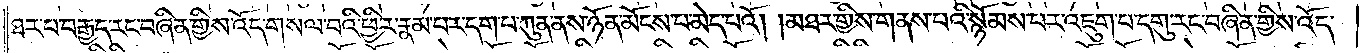ཐར་པ་བརྒྱད་རང་བཞིན་གྱིས་འོད་གསལ་བའི་ཕྱིར་རྣམ་པར་དག་པ་ཀུན་ནས་ཉོན་མོངས་པ་མེད་པའོ། །མཐར་གྱིས་གནས་པའི་སྙོམས་པར་འཇུག་པ་དགུ་རང་བཞིན་གྱིས་འོད་
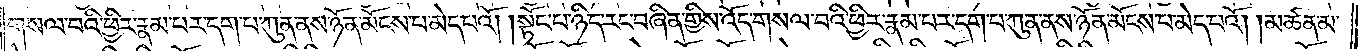གསལ་བའི་ཕྱིར་རྣམ་པར་དག་པ་ཀུན་ནས་ཉོན་མོངས་པ་མེད་པའོ། །སྟོང་པ་ཉིད་རང་བཞིན་གྱིས་འོད་གསལ་བའི་ཕྱིར་རྣམ་པར་དག་པ་ཀུན་ནས་ཉོན་མོངས་པ་མེད་པའོ། །མཚན་མ་
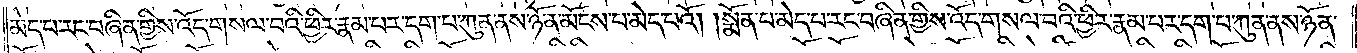མེད་པ་རང་བཞིན་གྱིས་འོད་གསལ་བའི་ཕྱིར་རྣམ་པར་དག་པ་ཀུན་ནས་ཉོན་མོངས་པ་མེད་པའོ། །སྨོན་པ་མེད་པ་རང་བཞིན་གྱིས་འོད་གསལ་བའི་ཕྱིར་རྣམ་པར་དག་པ་ཀུན་ནས་ཉོན་
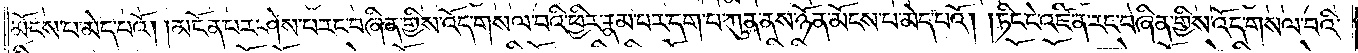མོངས་པ་མེད་པའོ། །མངོན་པར་ཤེས་པ་རང་བཞིན་གྱིས་འོད། །གསལ་བའི་ཕྱིར་རྣམ་པར་དག་པ་ཀུན་ནས་ཉོན་མོངས་པ་མེད་པའོ། །ཏིང་ངེ་འཛིན་རང་བཞིན་གྱིས་འོད་གསལ་བའི་
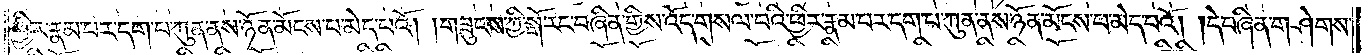ཕྱིར་རྣམ་པར་དག་པ་ཀུན་ནས་ཉོན་མོངས་པ་མེད་པའོ། །གཟུངས་ཀྱི་སྒོ་རང་བཞིན་གྱིས་འོད་གསལ་བའི་ཕྱིར་རྣམ་པར་དག་པ་ཀུན་ནས་ཉོན་མོངས་པ་མེད་པའོ། །དེ་བཞིན་གཤེགས་
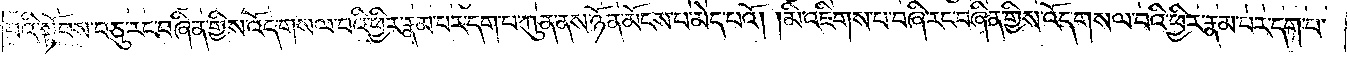པའི་སྟོབས་བཅུ་རང་བཞིན་གྱིས་འོད་གསལ་བའི་ཕྱིར་རྣམ་པར་དག་པ་ཀུན་ནས་ཉོན་མོངས་པ་མེད་པའོ། །མི་འཇིགས་པ་བཞི་རང་བཞིན་གྱིས་འོད་གསལ་བའི་ཕྱིར་རྣམ་པར་དག་པ་
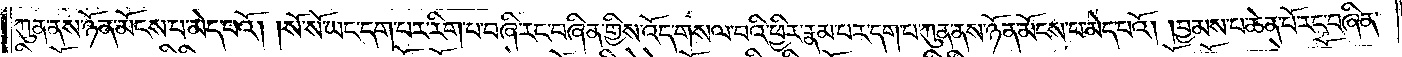ཀུན་ནས་ཉོན་མོངས་པ་མེད་པའོ། །སོ་སོ་ཡང་དག་པར་རིག་པ་བཞི་རང་བཞིན་གྱིས་འོད་གསལ་བའི་ཕྱིར་རྣམ་པར་དག་པ་ཀུན་ནས་ཉོན་མོངས་པ་མེད་པའོ། །བྱམས་པ་ཆེན་པོ་རང་བཞིན་
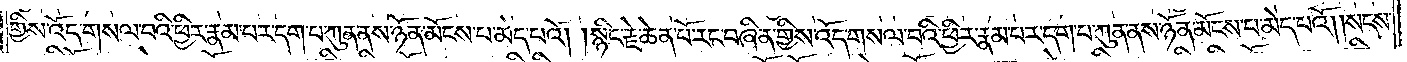གྱིས་འོད་གསལ་བའི་ཕྱིར་རྣམ་པར་དག་པ་ཀུན་ནས་ཉོན་མོངས་པ་མེད་པའོ། །སྙིང་རྗེ་ཆེན་པོ་རང་བཞིན་གྱིས་འོད་གསལ་བའི་ཕྱིར་རྣམ་པར་དག་པ་ཀུན་ནས་ཉོན་མོངས་པ་མེད་པའོ། །སངས་
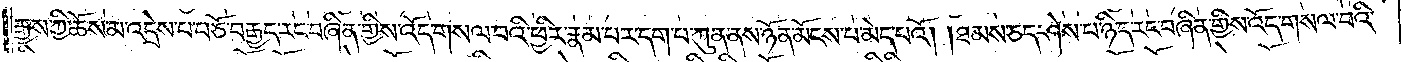རྒྱས་ཀྱི་ཆོས་མ་འདྲེས་པ་བཅོ་བརྒྱད་རང་བཞིན་གྱིས་འོད་གསལ་བའི་ཕྱིར་རྣམ་པར་དག་པ་ཀུན་ནས་ཉོན་མོངས་པ་མེད་པའོ། །ཐམས་ཅད་ཤེས་པ་ཉིད་རང་བཞིན་གྱིས་འོད་གསལ་བའི་
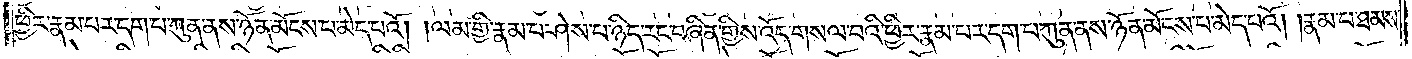ཕྱིར་རྣམ་པར་དག་པ་ཀུན་ནས་ཉོན་མོངས་པ་མེད་པའོ། །ལམ་གྱི་རྣམ་པར་ཤེས་པ་ཉིད་རང་བཞིན་གྱིས་འོད་གསལ་བའི་ཕྱིར་རྣམ་པར་དག་པ་ཀུན་ནས་ཉོན་མོངས་པ་མེད་པའོ། །རྣམ་པ་ཐམས་
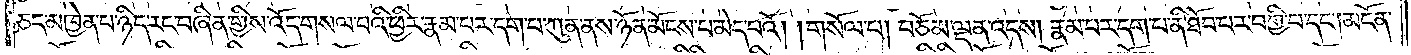ཅད་མཁྱེན་པ་ཉིད་རང་བཞིན་གྱིས་འོད་གསལ་བའི་ཕྱིར་རྣམ་པར་དག་པ་ཀུན་ནས་ཉོན་མོངས་པ་མེད་པའོ། །གསོལ་བ། བཅོམ་ལྡན་འདས། རྣམ་པར་དག་པ་ནི་ཐོབ་པར་བགྱི་བ་དང༌། མངོན་
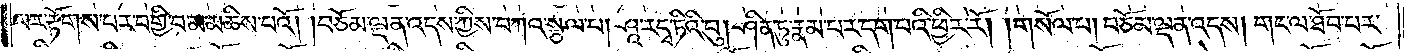པར་རྟོགས་པར་བགྱི་བ་མ་མཆིས་པའོ། །བཅོམ་ལྡན་འདས་ཀྱིས་བཀའ་སྩལ་བ། ཤཱ་ར་དྭ་ཏིའི་བུ། ཤིན་ཏུ་རྣམ་པར་དག་པའི་ཕྱིར་རོ། །གསོལ་བ། བཅོམ་ལྡན་འདས། གང་ལ་ཐོབ་པར་
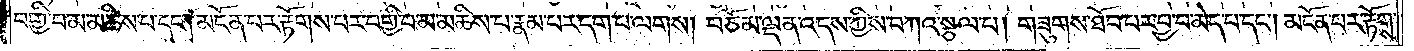བགྱི་བ་མ་མཆིས་པ་དང༌། མངོན་པར་རྟོགས་པར་བགྱི་བ་མ་མཆིས་པ་རྣམ་པར་དག་པ་ལགས། བཅོམ་ལྡན་འདས་ཀྱིས་བཀའ་སྩལ་བ། གཟུགས་ཐོབ་པར་བྱ་བ་མེད་པ་དང༌། མངོན་པར་རྟོགས་
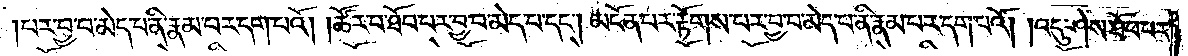པར་བྱ་བ་མེད་པ་ནི་རྣམ་པར་དག་པའོ། །ཚོར་བ་ཐོབ་པར་བྱ་བ་མེད་པ་དང༌། མངོན་པར་རྟོགས་པར་བྱ་བ་མེད་པ་ནི་རྣམ་པར་དག་པའོ། །འདུ་ཤེས་ཐོབ་པར་
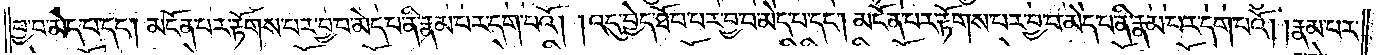བྱ་བ་མེད་པ་དང༌། མངོན་པར་རྟོགས་པར་བྱ་བ་མེད་པ་ནི་རྣམ་པར་དག་པའོ། །འདུ་བྱེད་ཐོབ་པར་བྱ་བ་མེད་པ་དང༌། མངོན་པར་རྟོགས་པར་བྱ་བ་མེད་པ་ནི་རྣམ་པར་དག་པའོ། །རྣམ་པར་
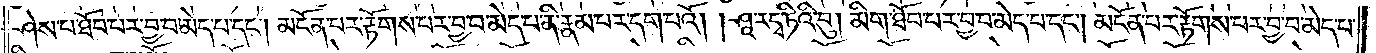ཤེས་པ་ཐོབ་པར་བྱ་བ་མེད་པ་དང༌། མངོན་པར་རྟོགས་པར་བྱ་བ་མེད་པ་ནི་རྣམ་པར་དག་པའོ། །ཤཱ་རདྭ་ཏིའི་བུ། མིག་ཐོབ་པར་བྱ་བ་མེད་པ་དང༌། མངོན་པར་རྟོགས་པར་བྱ་བ་མེད་པ་
